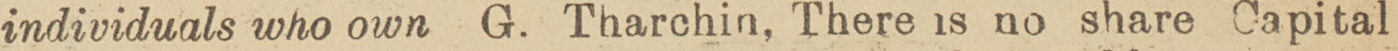individuals who own G. Tharchin, There is no share Capital
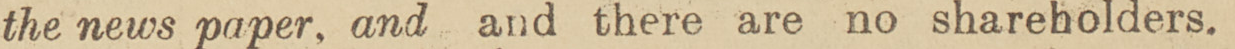the news paper, and and there are no shareholders.
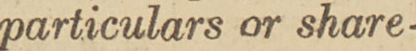perticulars or share-
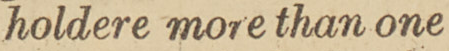holdere more than one
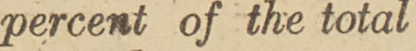percent of the total
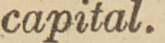capital.
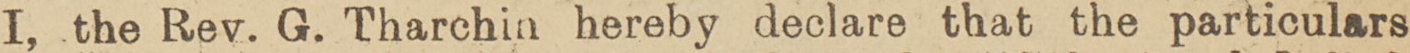I, the Rev. G. Tharchin hereby declare that the paticulars
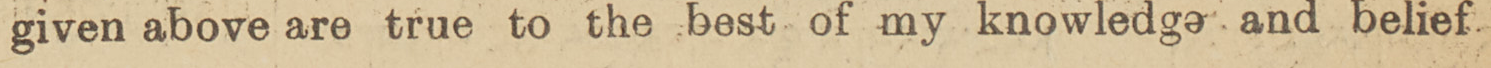given above are true to the best of my knowledge and belief
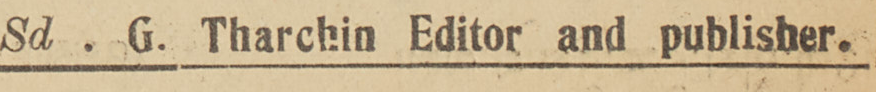sd. G. Tharchin Editor and publisher.
